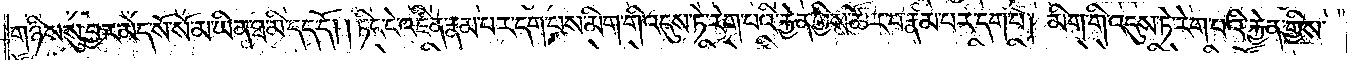གཉིས་སུ་བྱར་མེད་སོ་སོ་མ་ཡིན་ཐ་མི་དད་དོ། །ཏིང་ངེ་འཛིན་རྣམ་པར་དག་པས་མིག་གི་འདུས་ཏེ་རེག་པའི་རྐྱེན་གྱིས་ཚོར་བ་རྣམ་པར་དག་པ། མིག་གི་འདུས་ཏེ་རེག་པའི་རྐྱེན་གྱིས་
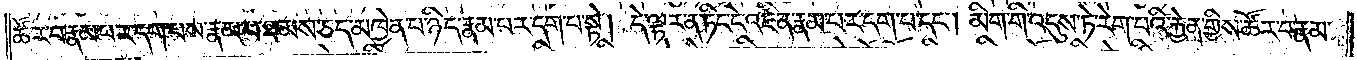ཚོར་བ་རྣམ་པར་དག་པས་རྣམ་པ་ཐམས་ཅད་མཁྱེན་པ་ཉིད་རྣམ་པར་དག་པ་སྟེ། དེ་ལྟར་ན་ཏིང་ངེ་འཛིན་རྣམ་པར་དག་པ་དང༌། མིག་གི་འདུས་ཏེ་རེག་པའི་རྐྱེན་གྱིས་ཚོར་བ་རྣམ་
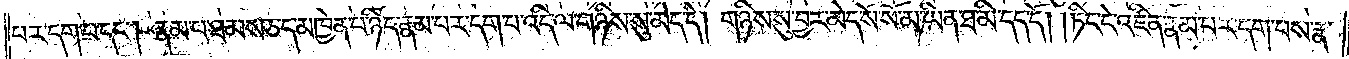པར་དག་པ་དང༌། རྣམ་པ་ཐམས་ཅད་མཁྱེན་པ་ཉིད་རྣམ་པར་དག་པ་འདི་ལ་གཉིས་སུ་མེད་དེ། གཉིས་སུ་བྱར་མེད་སོ་སོ་མ་ཡིན་ཐ་མི་དད་དོ། །ཏིང་ངེ་འཛིན་རྣམ་པར་དག་པས་རྣ་
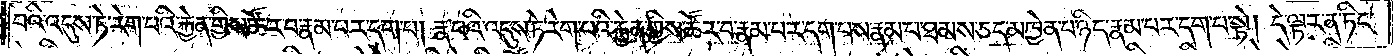བའི་འདུས་ཏེ་རེག་པའི་རྐྱེན་གྱིས་ཚོར་བ་རྣམ་པར་དག་པ། རྣ་བའི་འདུས་ཏེ་རེག་པའི་རྐྱེན་གྱིས་ཚོར་བ་རྣམ་པར་དག་པས་རྣམ་པ་ཐམས་ཅད་མཁྱེན་པ་ཉིད་རྣམ་པར་དག་པ་སྟེ། དེ་ལྟར་ན་ཏིང་
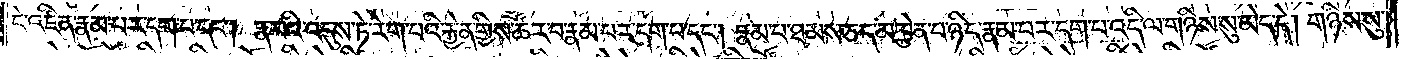ངེ་འཛིན་རྣམ་པར་དག་པ་དང༌། རྣ་བའི་འདུས་ཏེ་རེག་པའི་རྐྱེན་གྱིས་ཚོར་བ་རྣམ་པར་དག་པ་དང༌། རྣམ་པ་ཐམས་ཅད་མཁྱེན་པ་ཉིད་རྣམ་པར་དག་པ་འདི་ལ་གཉིས་སུ་མེད་དེ། གཉིས་སུ་
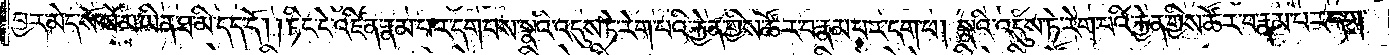བྱར་མེད་སོ་སོ་མ་ཡིན་ཐ་མི་དད་དོ། །ཏིང་ངེ་འཛིན་རྣམ་པར་དག་པས་སྣའི་འདུས་ཏེ་རེག་པའི་རྐྱེན་གྱིས་ཚོར་བ་རྣམ་པར་དག་པ། སྣའི་འདུས་ཏེ་རེག་པའི་རྐྱེན་གྱིས་ཚོར་བ་རྣམ་པར་དག་
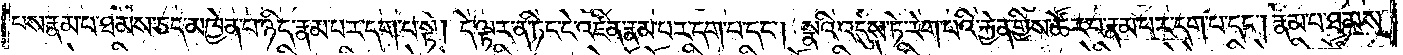པས་རྣམ་པ་ཐམས་ཅད་མཁྱེན་པ་ཉིད་རྣམ་པར་དག་པ་སྟེ། དེ་ལྟར་ན་ཏིང་ངེ་འཛིན་རྣམ་པར་དག་པ་དང༌། སྣའི་འདུས་ཏེ་རེག་པའི་རྐྱེན་གྱིས་ཚོར་བ་རྣམ་པར་དག་པ་དང༌། རྣམ་པ་ཐམས་
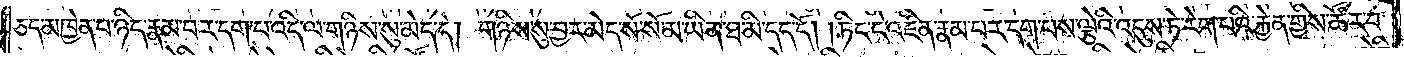ཅད་མཁྱེན་པ་ཉིད་རྣམ་པར་དག་པ་འདི་ལ་གཉིས་སུ་མེད་དེ། གཉིས་སུ་བྱར་མེད་སོ་སོ་མ་ཡིན་ཐ་མི་དད་དོ། །ཏིང་ངེ་འཛིན་རྣམ་པར་དག་པས་ལྕེའི་འདུས་ཏེ་རེག་པའི་རྐྱེན་གྱིས་ཚོར་བ་
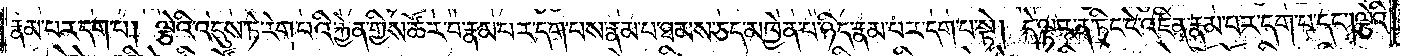རྣམ་པར་དག་པ། ལྕེའི་འདུས་ཏེ་རེག་པའི་རྐྱེན་གྱིས་ཚོར་བ་རྣམ་པར་དག་པས་རྣམ་པ་ཐམས་ཅད་མཁྱེན་པ་ཉིད་རྣམ་པར་དག་པ་སྟེ། དེ་ལྟར་ན་ཏིང་ངེ་འཛིན་རྣམ་པར་དག་པ་དང༌། ལྕེའི་
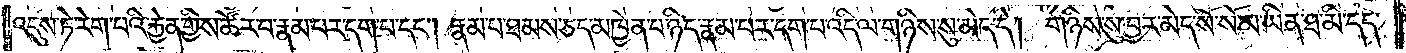འདུས་ཏེ་རེག་པའི་རྐྱེན་གྱིས་ཚོར་བ་རྣམ་པར་དག་པ་དང༌། རྣམ་པ་ཐམས་ཅད་མཁྱེན་པ་ཉིད་རྣམ་པར་དག་པ་འདི་ལ་གཉིས་སུ་མེད་དེ། གཉིས་སུ་བྱར་མེད་སོ་སོ་མ་ཡིན་ཐ་མི་དད་
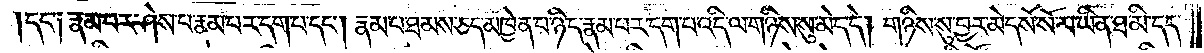དང་༑ རྣམ་པར་ཤེས་པ་རྣམ་པར་དག་པ་དང༌། རྣམ་པ་ཐམས་ཅད་མཁྱེན་པ་ཉིད་རྣམ་པར་དག་པ་འདི་ལ་གཉིས་སུ་མེད་དེ། གཉིས་སུ་བྱར་མེད་སོ་སོ་མ་ཡིན་ཐ་མི་དད་
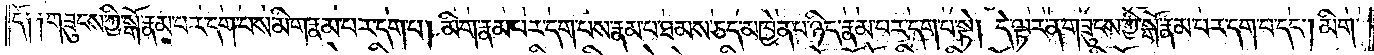དོ༑ ༑གཟུངས་ཀྱི་སྒོ་རྣམ་པར་དག་པས་མིག་རྣམ་པར་དག་པ། མིག་རྣམ་པར་དག་པས་རྣམ་པ་ཐམས་ཅད་མཁྱེན་པ་ཉིད་རྣམ་པར་དག་པ་སྟེ། དེ་ལྟར་ན་གཟུངས་ཀྱི་སྒོ་རྣམ་པར་དག་པ་དང༌། མིག་
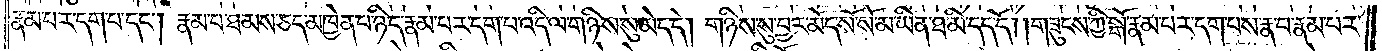རྣམ་པར་དག་པ་དང༌། རྣམ་པ་ཐམས་ཅད་མཁྱེན་པ་ཉིད་རྣམ་པར་དག་པ་འདི་ལ་གཉིས་སུ་མེད་དེ། གཉིས་སུ་བྱར་མེད་སོ་སོ་མ་ཡིན་ཐ་མི་དད་དོ། །གཟུངས་ཀྱི་སྒོ་རྣམ་པར་དག་པས་རྣ་བ་རྣམ་པར་
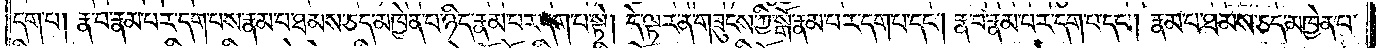དག་པ། རྣ་བ་རྣམ་པར་དག་པས་རྣམ་པ་ཐམས་ཅད་མཁྱེན་པ་ཉིད་རྣམ་པར་དག་པ་སྟེ། དེ་ལྟར་ན་གཟུངས་ཀྱི་སྒོ་རྣམ་པར་དག་པ་དང༌། རྣ་བ་རྣམ་པར་དག་པ་དང༌། རྣམ་པ་ཐམས་ཅད་མཁྱེན་པ་
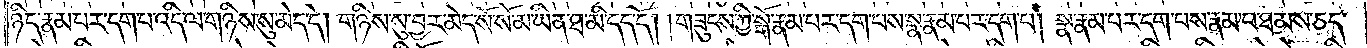ཉིད་རྣམ་པར་དག་པ་འདི་ལ་གཉིས་སུ་མེད་དེ། གཉིས་སུ་བྱར་མེད་སོ་སོ་མ་ཡིན་ཐ་མི་དད་དོ། །གཟུངས་ཀྱི་སྒོ་རྣམ་པར་དག་པས་སྣ་རྣམ་པར་དག་པ། སྣ་རྣམ་པར་དག་པས་རྣམ་པ་ཐམས་ཅད་
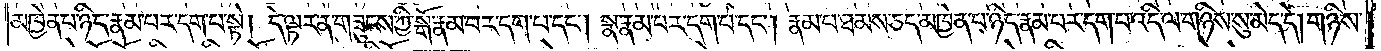མཁྱེན་པ་ཉིད་རྣམ་པར་དག་པ་སྟེ། དེ་ལྟར་ན་གཟུངས་ཀྱི་སྒོ་རྣམ་པར་དག་པ་དང༌། སྣ་རྣམ་པར་དག་པ་དང༌། རྣམ་པ་ཐམས་ཅད་མཁྱེན་པ་ཉིད་རྣམ་པར་དག་པ་འདི་ལ་གཉིས་སུ་མེད་དེ། གཉིས་
